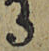3
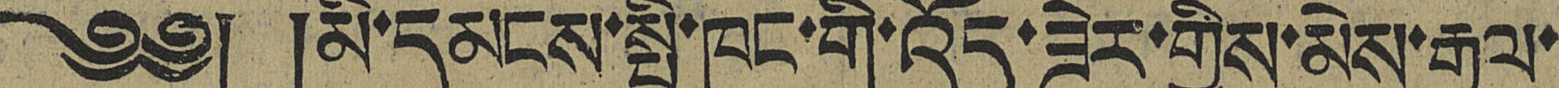༄༅། །མི་དམངས་སྤྱི་ཁང་གི་འོད་ཟེར་གྱིས་མེས་རྒྱལ་
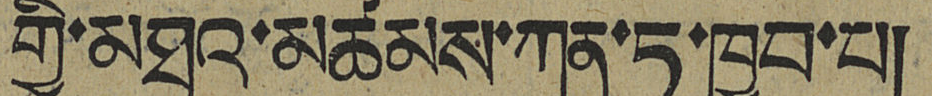གྱི་མཐའ་མཚམས་ཀུན་ཏུ་ཁྱབ་པ།
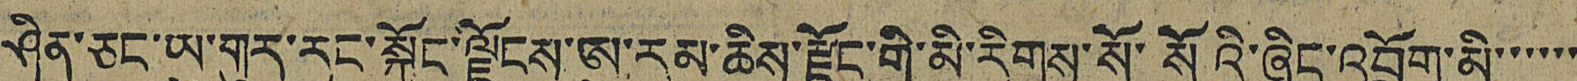ཤིན་ཅང་ཨུ་གུར་རང་སྐྱོང་ལྗོངས་ཨུ་རུམ་ཆིས་རྫོང་གི་མི་རིགས་སོ་སོའི་ཞིང་འབྲོག་མི་་་་་་
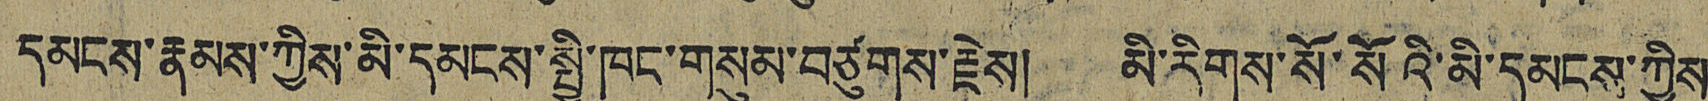དམངས་རྣམས་ཀྱིས་མི་དམངས་སྤྱི་ཁང་གསུམ་བཙུགས་རྗེས། མི་རིགས་སོ་སོའི་མི་དམངས་ཀྱིས་
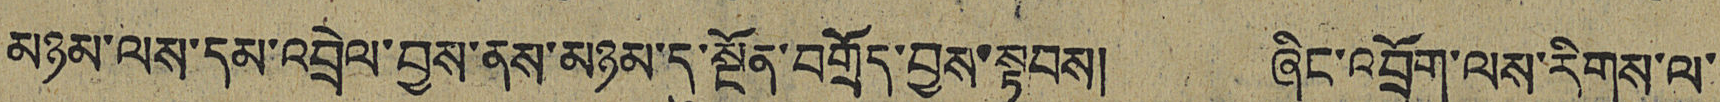མཉམ་ལས་དམ་འབྲེལ་བྱས་ནས་མཉམ་དུ་སྔོན་བགྲོད་བྱས་སྟབས། ཞིང་འབྲོག་ལས་རིགས་ལ་
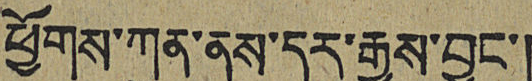ཕྱོགས་ཀུན་ནས་དར་རྒྱས་བྱུང་།
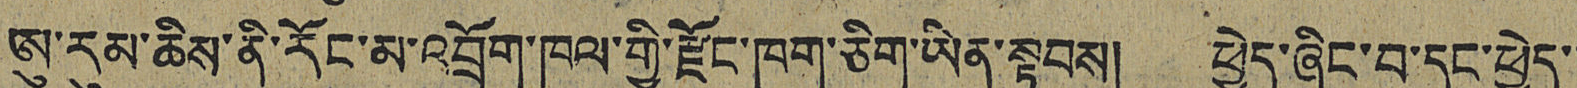ཨུ་རུམ་ཆིས་ནི་རོང་མ་འབྲོག་ཁུལ་གྱི་རྫོང་ཁག་ཅིག་ཡིན་སྟབས། ཕྱེད་ཞིང་བ་དང་ཕྱེད་་
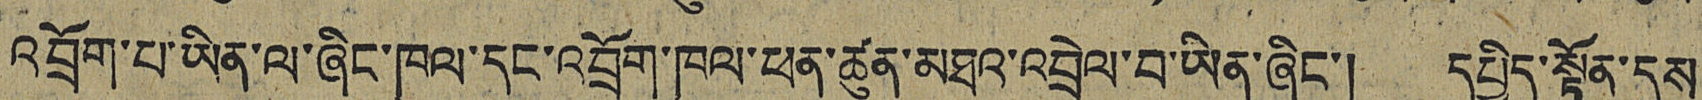འབྲོག་པ་ཡིན་ལ་ཞིང་ཁུལ་དང་འབྲོག་ཁུལ་ཕན་ཚུན་མཐའ་འབྲེལ་བ་ཡིན་ཞིང་། དཔྱིད་སྟོན་དུས་
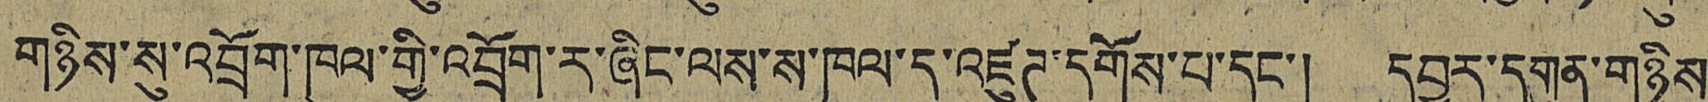གཉིས་སུ་འབྲོག་ཁུལ་གྱི་འབྲོག་ར་ཞིང་ལས་ས་ཁུལ་དུ་འཛུཊ་དགོས་པ་དང་། དབྱར་དགུན་གཉིས་
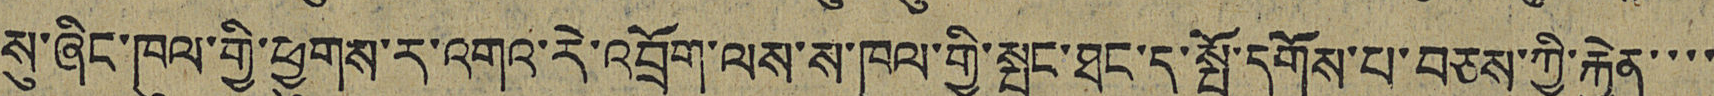སུ་ཞིང་ཁུལ་གྱི་ཕྱུགས་ར་འགའ་རེ་འབྲོག་ལས་ས་ཁུལ་གྱི་སྤང་ཐང་དུ་སྤོ་དགོས་པ་བཅས་ཀྱི་རྐྱེན་་་་
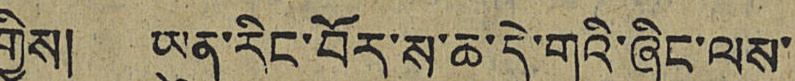གྱིས། ཡུན་རིང་བོར་ས་ཆ་དེ་གའི་ཞིང་ལས་
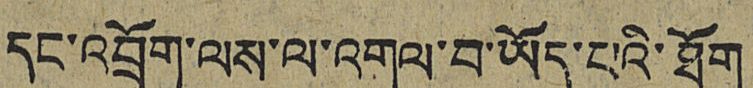དང་འབྲོག་ལས་ལ་འགལ་བ་ཡོད་པའི་ཐོག
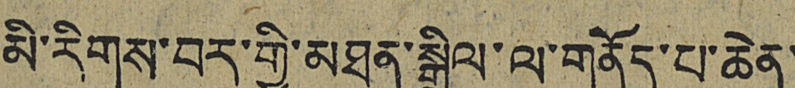མི་རིགས་བར་གྱི་མཐུན་སྒྲིལ་ལ་གནོད་པ་ཆེན་
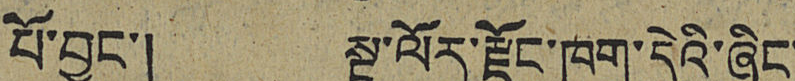པོ་བྱུང་། སྔ་ལོར་རྫོང་ཁག་དེའི་ཞིང་
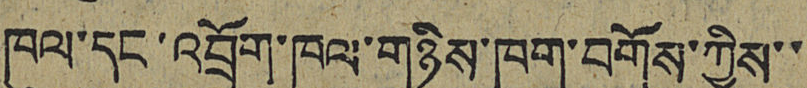ཁུལ་དང་འབྲོག་ཁུལ་གཉིས་ཁག་བགོས་ཀྱིས་་
